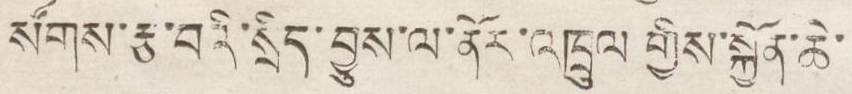སོགས་རྩ་བའི་སྲིད་བྱུས་ལ་ནོར་འཁྲུལ གྱིས་སྐྱོན་ཆེ་
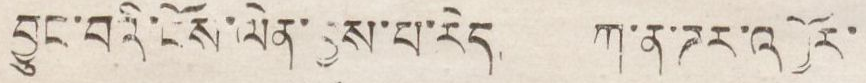བྱུང་བའི་ངོས་ལེན་བྱས་པ་རེད ཀ་ན་ཌར་འབྱོར་
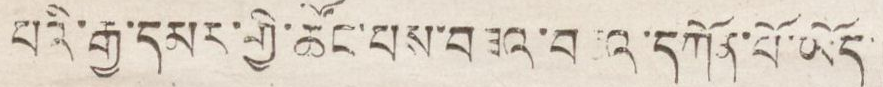པའི་རྒྱ་དམར་གྱི་ཚོང་པས་བཟའ་བཅའ་དཀོན་པོ་ཡོད་
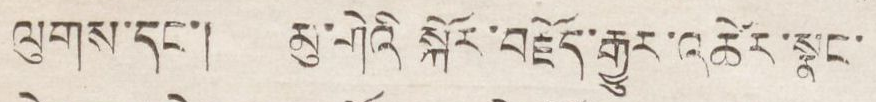ལུགས་དང་། མུ་གེའི སྐོར་བརྗོད་རྒྱུར་འཚེར་སྣང་
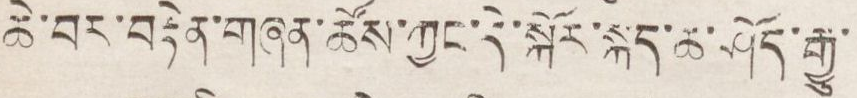ཆེ་བར་བརྟེན་གཞན་ཚོས་ཀྱང་དེ་སྐོར་སྐད་ཆ་ཤོད་རྒྱུ་
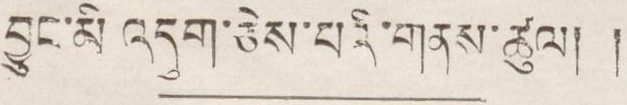བྱུང་མི འདུག་ཅེས་པའི་གནས་ཚུལ། །
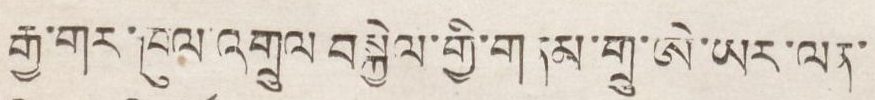རྒྱ་གར་ཁུལ་འགྲུལ བསྐྱེལ་གྱི་གནམ་གྲུ་ཨེ་ཡར་ལན་
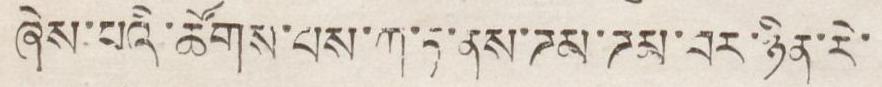ཞེས་པའི་ཚོགས་པས་ཀ་ཏ་ནས་ཌམ་ཌམ་བར་ཉིན་རེ་
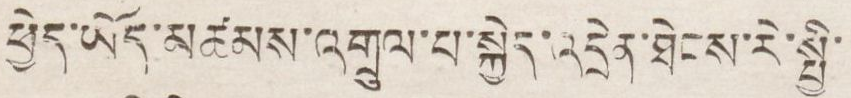ཕྱེད་ཡོད་མཚམས་འགྲུལ་པ་སྐྱེད་འདྲེན་ཐེངས་རེ་སྤྱི་
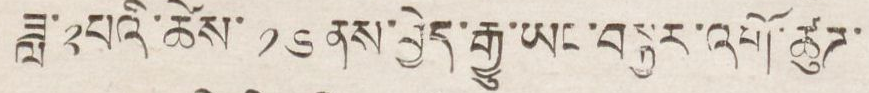ཟླ་༢པའི་ཚེས་ ༡༦ ནས་བྱེད་རྒྱུ་ཡང་བསྐྱར་འགོ་ཚུཊ་
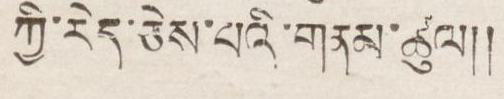ཀྱི་རེད་ཅེས་པའི་གནས་ཚུལ།།
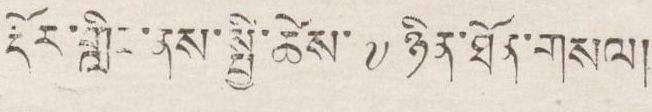རྡོར་གླིང་ནས་སྤྱི་ཚེས་ ༧ ཉིན་ཐོན་གསལ།
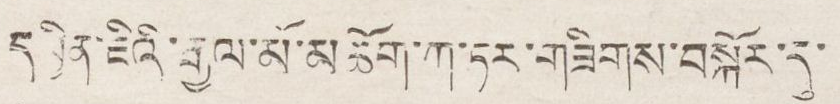དབྱིན་ཇིའི་རྒྱལ་མོ་མཆོག་ཀ་ཏར་གཟིགས་བསྐོར་དུ་
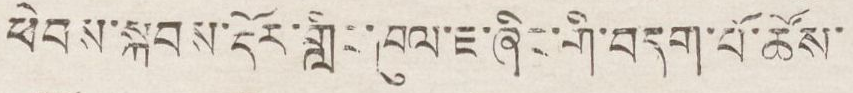ཕེབས་སྐབས་རྡོར་གླིང་ཁུལ་ཇ་ཞིང་གི་བདག་པོ་ཚོས་
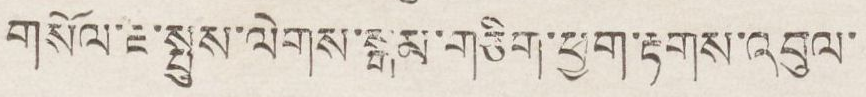གསོལ་ཇ་སྤུས་ལེགས་སྒམ་གཅིག་ཕྱག་རྟགས་འབུལ་
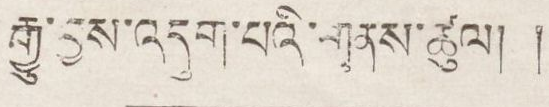རྒྱུ་བྱས་འདུག་པའི་གནས་ཚུལ། །
